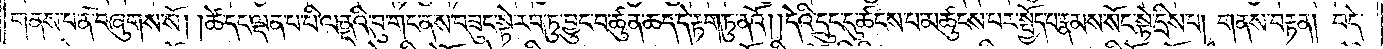གནས་པ་ན་བཞུགས་སོ། །ཚེ་དང་ལྡན་པ་པི་ལནྡའི་བུ་གང་ནས་བཟུང་སྟེ་རབ་ཏུ་བྱུང་བ་ཚུན་ཆད་དེ་རྟག་ཏུ་ནའོ། །དེའི་དྲུང་དུ་ཚངས་པ་མཚུངས་པར་སྤྱོད་པ་རྣམས་སོང་སྟེ་དྲིས་པ། གནས་བརྟན། བདེ་
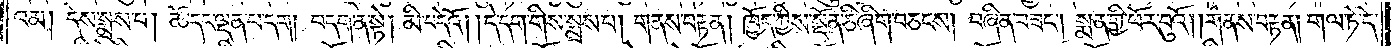འམ། དེས་སྨྲས་པ། ཚེ་དང་ལྡན་པ་དག། བདག་ན་སྟེ། མི་བདེའོ། །དེ་དག་གིས་སྨྲས་པ། གནས་བརྟན། ཁྱོད་ཀྱིས་སྔོན་ཅི་ཞིག་བཅངས། བཞིན་བཟང༌། སྨན་གྱི་ཕོར་བུའོ། །གནས་བརྟན། གལ་ཏེ་དེ་
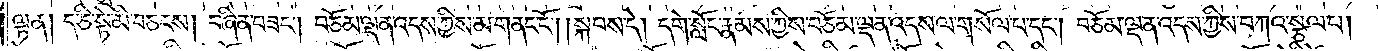ལྟ་ན། ད་ཅི་སྟེ་མི་བཅངས། བཞིན་བཟང༌། བཅོམ་ལྡན་འདས་ཀྱིས་མ་གནང་ངོ༌། །སྐབས་དེ། དགེ་སློང་རྣམས་ཀྱིས་བཅོམ་ལྡན་འདས་ལ་གསོལ་པ་དང༌། བཅོམ་ལྡན་འདས་ཀྱིས་བཀའ་སྩལ་པ།
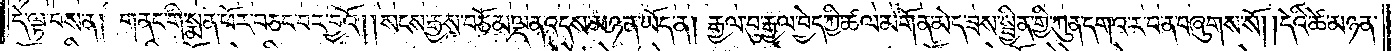དེ་ལྟ་བས་ན། གནང་གི་སྨན་ཕོར་བཅང་བར་བྱའོ། །སངས་རྒྱས་བཅོམ་ལྡན་འདས་མཉན་ཡོད་ན། རྒྱལ་བུ་རྒྱལ་བྱེད་ཀྱི་ཚལ་མགོན་མེད་ཟས་སྦྱིན་གྱི་ཀུན་དགའ་ར་བ་ན་བཞུགས་སོ། །དེའི་ཚེ་མཉན་
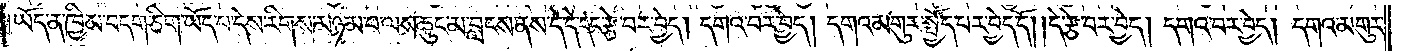ཡོད་ན་ཁྱིམ་བདག་ཅིག་ཡོད་པ་དེས་རིགས་མཉམ་པ་ལས་ཆུང་མ་བླངས་ནས་དེ་དེ་དང་རྩེ་བར་བྱེད། དགའ་བར་བྱེད། དགའ་མགུར་སྤྱོད་པར་བྱེད་དོ། །དེ་རྩེ་བར་བྱེད། དགའ་བར་བྱེད། དགའ་མགུར་
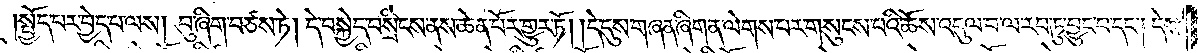སྤྱོད་པར་བྱེད་པ་ལས། བུ་ཞིག་བཙས་ཏེ། དེ་བསྐྱེད་བསྲིངས་ནས་ཆེན་པོར་གྱུར་ཏོ། །དེ་དུས་གཞན་ཞིག་ན་ལེགས་པར་གསུངས་པའི་ཆོས་འདུལ་བ་ལ་རབ་ཏུ་བྱུང་བ་དང༌། དེས་
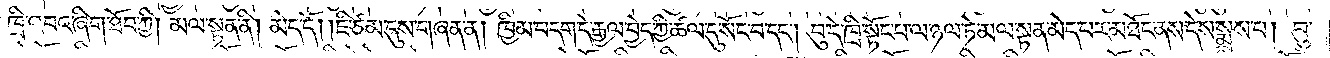ཁྲི་འབའ་ཞིག་ཐོབ་ཀྱི། མལ་སྟན་ནི། མེད་དོ། །ཇི་ཙམ་དུས་གཞན་ན། ཁྱིམ་བདག་དེ་རྒྱལ་བྱེད་ཀྱི་ཚལ་དུ་སོང་བ་དང༌། བུ་དེ་ཁྲི་སྟོང་པ་ལ་ཉལ་ཏེ་མལ་སྟན་མེད་པར་མཐོང་ནས་དེས་སྨྲས་པ། བུ་
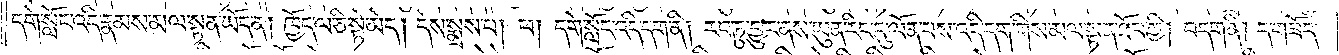དགེ་སློང་འདི་རྣམས་མལ་སྟན་ཡོད་ན། ཁྱོད་ལ་ཅི་སྟེ་མེད། དེས་སྨྲས་པ། ཕ། དགེ་སློང་འདི་དག་ནི། རབ་ཏུ་བྱུང་ནས་ཡུན་རིང་དུ་ལོན་པས་འདི་དག་གིས་མལ་སྟན་ཐོབ་ཀྱི། བདག་ནི། ད་གཟོད་
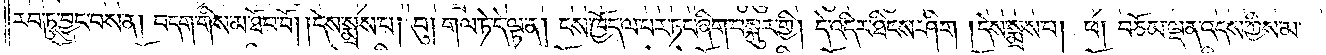རབ་ཏུ་བྱུང་བས་ན། བདག་གིས་མ་ཐོབ་བོ། །དེས་སྨྲས་པ། བུ། གལ་ཏེ་དེ་ལྟ་ན། ངས་ཁྱོད་ལ་པར་ཏང་ཞིག་བསྐུར་གྱི། དེ་འདིར་ཐིངས་ཤིག །དེས་སྨྲས་པ། ཕ། བཅོམ་ལྡན་འདས་ཀྱིས་མ་
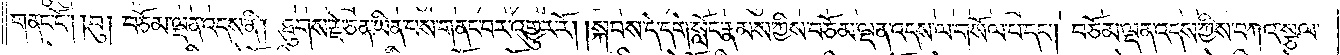གནང་ངོ༌། །བུ། བཅོམ་ལྡན་འདས་ནི། ཐུགས་རྗེ་ཅན་ཡིན་པས་གནང་བར་འགྱུར་རོ། །སྐབས་དེ་དགེ་སློང་རྣམས་ཀྱིས་བཅོམ་ལྡན་འདས་ལ་གསོལ་པ་དང༌། བཅོམ་ལྡན་འདས་ཀྱིས་བཀའ་སྩལ་
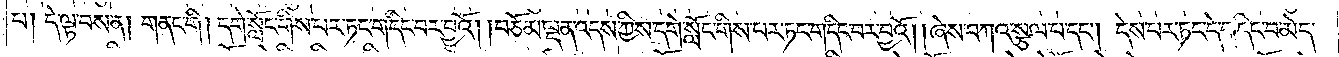པ། དེ་ལྟ་བས་ན། གནང་གི། དགེ་སློང་གིས་པར་ཏང་གདིང་བར་བྱའོ། །བཅོམ་ལྡན་འདས་ཀྱིས་དགེ་སློང་གིས་པར་ཏང་གདིང་བར་བྱའོ། །ཞེས་བཀའ་སྩལ་པ་དང༌། དེས་པར་ཏང་དེ་གདིང་བ་མེད་
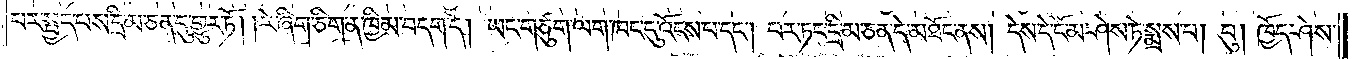པར་སྤྱད་པས་དྲི་མ་ཅན་དུ་གྱུར་ཏོ། །རེ་ཞིག་ཅིག་ན་ཁྱིམ་བདག་དེ། ཡང་གཙུག་ལག་ཁང་དུ་འོངས་པ་དང༌། པར་ཏང་དྲི་མ་ཅན་དེ་མཐོང་ནས། དེས་དེ་ངོ་མ་ཤེས་ཏེ་སྨྲས་པ། བུ། ཁྱོད་ཤེས་
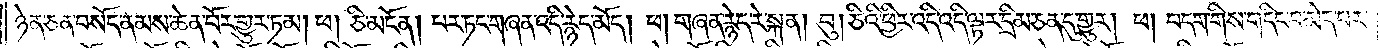ཉེན་ཅན་བསོད་ནམས་ཆེན་པོར་གྱུར་ཏམ། ཕ། ཅི་མངོན། པར་ཏང་གཞན་འདི་རྙེད་མོད། ཕ། གཞན་རྙེད་རེ་སྐན། བུ། ཅིའི་ཕྱིར་འདི་འདི་ལྟར་དྲི་མ་ཅན་དུ་གྱུར། ཕ། བདག་གིས་གདིང་བ་མེད་པར་
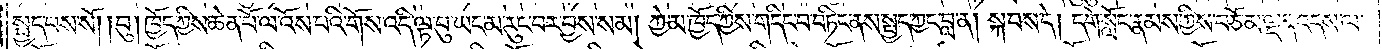སྤྱད་པས་སོ། །བུ། ཁྱོད་ཀྱིས་ཆེན་པོ་ལ་འོས་པའི་གོས་འདི་ལྟ་བུ་ཡང་མ་རུང་བར་བྱས་སམ། ཀྱེ་མ་ཁྱོད་ཀྱིས་གདིང་བ་བཏིང་ནས་སྤྱད་ཀྱང་བླ་ན། སྐབས་དེ། དགེ་སློང་རྣམས་ཀྱིས་བཅོམ་ལྡན་འདས་ལ་
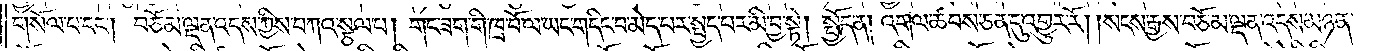གསོལ་པ་དང༌། བཅོམ་ལྡན་འདས་ཀྱིས་བཀའ་སྩལ་པ། གང་ཟག་གི་ཁྲ་བོ་ལ་ཡང་གདིང་བ་མེད་པར་སྤྱད་པར་མི་བྱ་སྟེ། སྤྱོད་ན། འགལ་ཚབས་ཅན་དུ་འགྱུར་རོ། །སངས་རྒྱས་བཅོམ་ལྡན་འདས་མཉན་
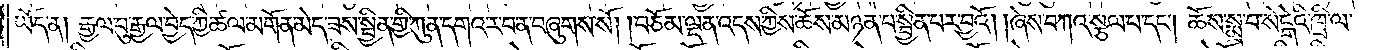ཡོད་ན། རྒྱལ་བུ་རྒྱལ་བྱེད་ཀྱི་ཚལ་མགོན་མེད་ཟས་སྦྱིན་གྱི་ཀུན་དགའ་ར་བ་ན་བཞུགས་སོ། །བཅོམ་ལྡན་འདས་ཀྱིས་ཆོས་མཉན་པ་སྦྱིན་པར་བྱའོ། །ཞེས་བཀའ་སྩལ་པ་དང༌། ཆོས་སྨྲ་བ་སེངྒེའི་ཁྲི་ལ་
